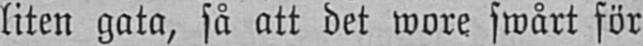liten gata, så att det wore swårt för
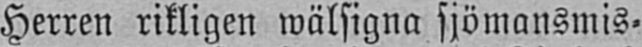Herren rikligen wälsigna sjömansmis-
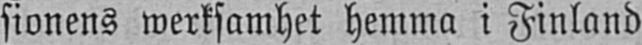sionens werksamhet hemma i Finland
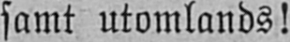samt utomlands!
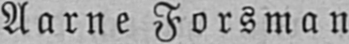Aarne Forsman
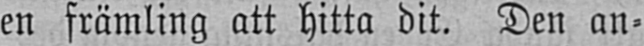en främling att hitta dit. Den an-
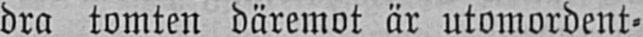dra tomten däremot är utomordent-
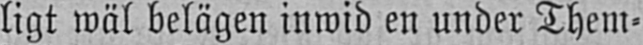ligt wäl belägen inwid en under Them-
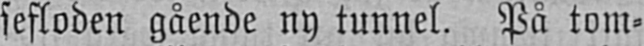sefloden gående ny tunnel. På tom-
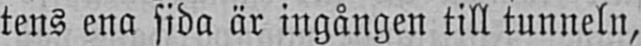tens ena sida är ingången till tunneln,
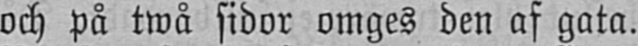och på twå sidor omges den af gata.
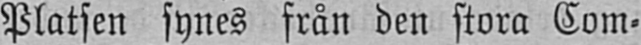Platsen synes från den stora Com-
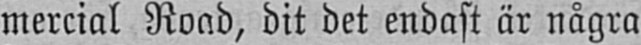mercial Road, dit det endast är några
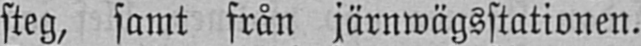steg, samt från järnwägsstationen.
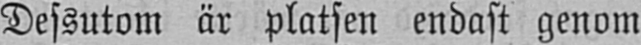Dessutom är platsen endast genom
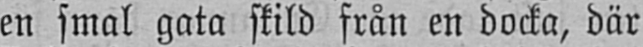en smal gata skild från en docka, där
